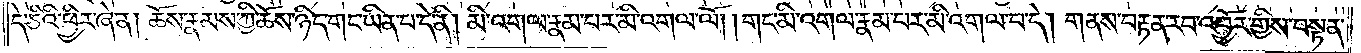དེ་ཅིའི་ཕྱིར་ཞེ་ན། ཆོས་རྣམས་ཀྱི་ཆོས་ཉིད་གང་ཡིན་པ་དེ་ནི། མི་འགལ་རྣམ་པར་མི་འགལ་ལོ། །གང་མི་འགལ་རྣམ་པར་མི་འགལ་བ་དེ། གནས་བརྟན་རབ་འབྱོར་གྱིས་བསྟན་
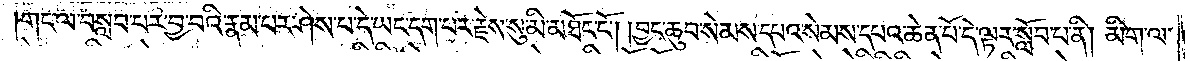གང་ལ་བསླབ་པར་བྱ་བའི་རྣམ་པར་ཤེས་པ་དེ་ཡང་དག་པར་རྗེས་སུ་མི་མཐོང་ངོ༌། །བྱང་ཆུབ་སེམས་དཔའ་སེམས་དཔའ་ཆེན་པོ་དེ་ལྟར་སློབ་པ་ནི། མིག་ལ་
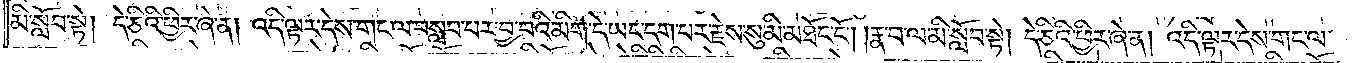མི་སློབ་སྟེ། དེ་ཅིའི་ཕྱིར་ཞེ་ན། འདི་ལྟར་དེས་གང་ལ་བསླབ་པར་བྱ་བའི་མིག་དེ་ཡང་དག་པར་རྗེས་སུ་མི་མཐོང་ངོ༌། །རྣ་བ་ལ་མི་སློབ་སྟེ། དེ་ཅིའི་ཕྱིར་ཞེ་ན། འདི་ལྟར་དེས་གང་ལ་
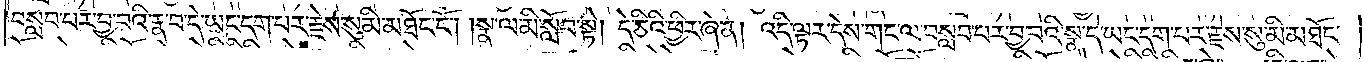བསླབ་པར་བྱ་བའི་རྣ་བ་དེ་ཡང་དག་པར་རྗེས་སུ་མི་མཐོང་ངོ༌། །སྣ་ལ་མི་སློབ་སྟེ། དེ་ཅིའི་ཕྱིར་ཞེ་ན། འདི་ལྟར་དེས་གང་ལ་བསླབ་པར་བྱ་བའི་སྣ་དེ་ཡང་དག་པར་རྗེས་སུ་མི་མཐོང་
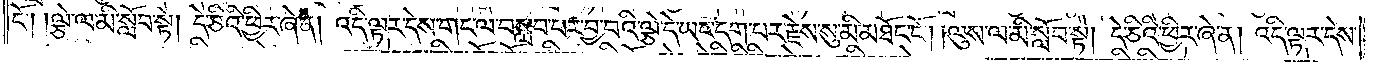ངོ༌། །ལྕེ་ལ་མི་སློབ་སྟེ། དེ་ཅིའི་ཕྱིར་ཞེ་ན། འདི་ལྟར་དེས་གང་ལ་བསླབ་པར་བྱ་བའི་ལྕེ་དེ་ཡང་དག་པར་རྗེས་སུ་མི་མཐོང་ངོ༌། །ལུས་ལ་མི་སློབ་སྟེ། དེ་ཅིའི་ཕྱིར་ཞེ་ན། འདི་ལྟར་དེས་
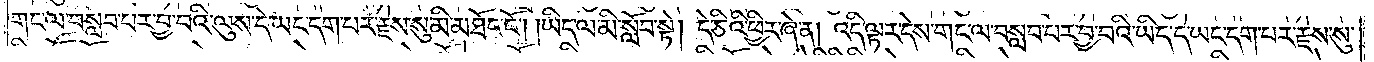གང་ལ་བསླབ་པར་བྱ་བའི་ལུས་དེ་ཡང་དག་པར་རྗེས་སུ་མི་མཐོང་ངོ༌། །ཡིད་ལ་མི་སློབ་སྟེ། དེ་ཅིའི་ཕྱིར་ཞེ་ན། འདི་ལྟར་དེས་གང་ལ་བསླབ་པར་བྱ་བའི་ཡིད་དེ་ཡང་དག་པར་རྗེས་སུ་
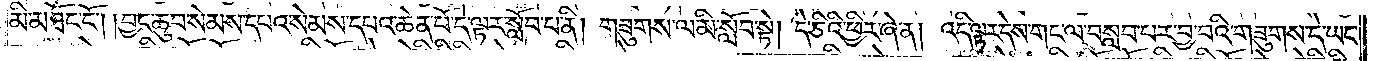མི་མཐོང་ངོ༌། །བྱང་ཆུབ་སེམས་དཔའ་སེམས་དཔའ་ཆེན་པོ་དེ་ལྟར་སློབ་པ་ནི། གཟུགས་ལ་མི་སློབ་སྟེ། དེ་ཅིའི་ཕྱིར་ཞེ་ན། འདི་ལ་དེས་གང་ལ་བསླབ་པར་བྱ་བའི་གཟུགས་དེ་ཡང་
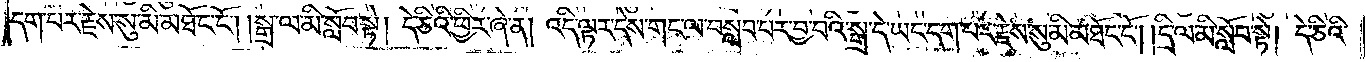དག་པར་རྗེས་སུ་མི་མཐོང་ངོ༌། །སྒྲ་ལ་མི་སློབ་སྟེ། དེ་ཅིའི་ཕྱིར་ཞེ་ན། འདི་ལྟར་དེས་གང་ལ་བསླབ་པར་བྱ་བའི་སྒྲ་དེ་ཡང་དག་པར་རྗེས་སུ་མི་མཐོང་ངོ༌། །དྲི་ལ་མི་སློབ་སྟེ། དེ་ཅིའི་
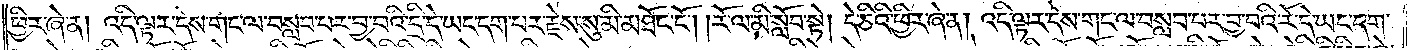ཕྱིར་ཞེ་ན། འདི་ལྟར་དེས་གང་ལ་བསླབ་པར་བྱ་བའི་དྲི་དེ་ཡང་དག་པར་རྗེས་སུ་མི་མཐོང་ངོ༌། །རོ་ལ་མི་སློབ་སྟེ། དེ་ཅིའི་ཕྱིར་ཞེ་ན། འདི་ལྟར་དེས་གང་ལ་བསླབ་པར་བྱ་བའི་རོ་དེ་ཡང་དག་
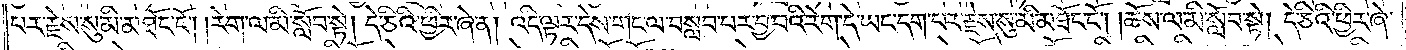པར་རྗེས་སུ་མི་མཐོང་ངོ༌། །རེག་ལ་མི་སློབ་སྟེ། དེ་ཅིའི་ཕྱིར་ཞེ་ན། འདི་ལྟར་དེས་གང་ལ་བསླབ་པར་བྱ་བའི་རེག་དེ་ཡང་དག་པར་རྗེས་སུ་མི་མཐོང་ངོ༌། །ཆོས་ལ་མི་སློབ་སྟེ། དེ་ཅིའི་ཕྱིར་ཞེ་
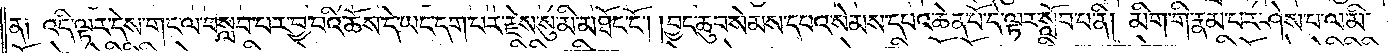ན༑ འདི་ལྟར་དེས་གང་ལ་བསླབ་པར་བྱ་བའི་ཆོས་དེ་ཡང་དག་པར་རྗེས་སུ་མི་མཐོང་ངོ༌། །བྱང་ཆུབ་སེམས་དཔའ་སེམས་དཔའ་ཆེན་པོ་དེ་ལྟར་སློབ་པ་ནི། མིག་གི་རྣམ་པར་ཤེས་པ་ལ་མི་
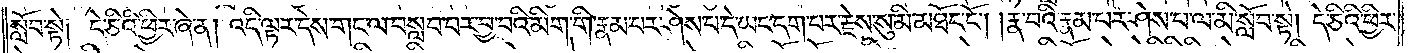སློབ་སྟེ། དེ་ཅིའི་ཕྱིར་ཞེ་ན། འདི་ལྟར་དེས་གང་ལ་བསླབ་པར་བྱ་བའི་མིག་གི་རྣམ་པར་ཤེས་པ་དེ་ཡང་དག་པར་རྗེས་སུ་མི་མཐོང་ངོ༌། །རྣ་བའི་རྣམ་པར་ཤེས་པ་ལ་མི་སློབ་སྟེ། དེ་ཅིའི་ཕྱིར་
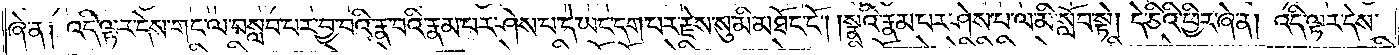ཞེ་ན། འདི་ལྟར་དེས་གང་ལ་བསླབ་པར་བྱ་བའི་རྣ་བའི་རྣམ་པར་ཤེས་པ་དེ་ཡང་དག་པར་རྗེས་སུ་མི་མཐོང་ངོ༌། །སྣའི་རྣམ་པར་ཤེས་པ་ལ་མི་སློབ་སྟེ། དེ་ཅིའི་ཕྱིར་ཞེ་ན། འདི་ལྟར་དེས་
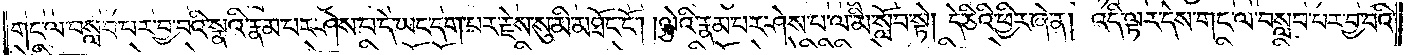གང་ལ་བསླབ་པར་བྱ་བའི་སྣའི་རྣམ་པར་ཤེས་པ་དེ་ཡང་དག་པར་རྗེས་སུ་མི་མཐོང་ངོ༌། །ལྕེའི་རྣམ་པར་ཤེས་པ་ལ་མི་སློབ་སྟེ། དེ་ཅིའི་ཕྱིར་ཞེ་ན། འདི་ལྟར་དེས་གང་ལ་བསླབ་པར་བྱ་བའི་
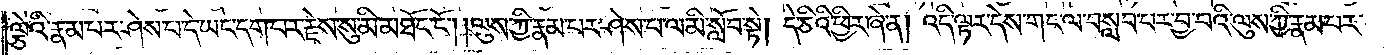ལྕེའི་རྣམ་པར་ཤེས་པ་དེ་ཡང་དག་པར་རྗེས་སུ་མི་མཐོང་ངོ༌། །ལུས་ཀྱི་རྣམ་པར་ཤེས་པ་ལ་མི་སློབ་སྟེ། དེ་ཅིའི་ཕྱིར་ཞེ་ན། འདི་ལྟར་དེས་གང་ལ་བསླབ་པར་བྱ་བའི་ལུས་ཀྱི་རྣམ་པར་
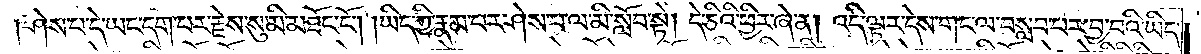ཤེས་པ་དེ་ཡང་དག་པར་རྗེས་སུ་མི་མཐོང་ངོ༌། །ཡིད་ཀྱི་རྣམ་པར་ཤེས་པ་ལ་མི་སློབ་སྟེ། དེ་ཅིའི་ཕྱིར་ཞེ་ན། འདི་ལྟར་དེས་གང་ལ་བསླབ་པར་བྱ་བའི་ཡིད་
